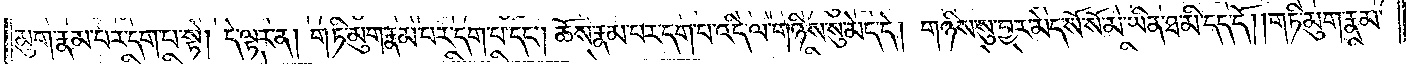མུག་རྣམ་པར་དག་པ་སྟེ། དེ་ལྟར་ན། གཏི་མུག་རྣམ་པར་དག་པ་དང༌། ཆོས་རྣམ་པར་དག་པ་འདི་ལ་གཉིས་སུ་མེད་དེ། གཉིས་སུ་བྱར་མེད་སོ་སོ་མ་ཡིན་ཐ་མི་དད་དོ། །གཏི་མུག་རྣམ་
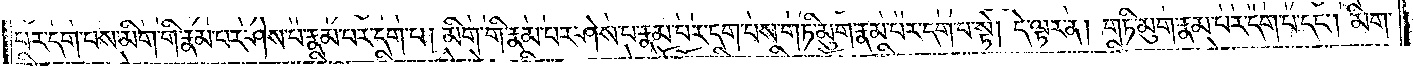པར་དག་པས་མིག་གི་རྣམ་པར་ཤེས་པ་རྣམ་པར་དག་པ། མིག་གི་རྣམ་པར་ཤེས་པ་རྣམ་པར་དག་པས་གཏི་མུག་རྣམ་པར་དག་པ་སྟེ། དེ་ལྟར་ན། གཏི་མུག་རྣམ་པར་དག་པ་དང༌། མིག་
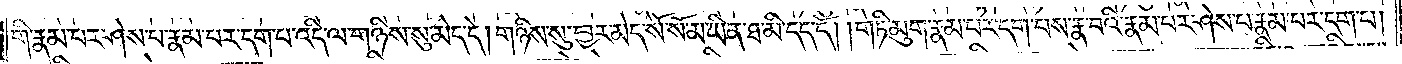གི་རྣམ་པར་ཤེས་པ་རྣམ་པར་དག་པ་འདི་ལ་གཉིས་སུ་མེད་དེ། གཉིས་སུ་བྱར་མེད་སོ་སོ་མ་ཡིན་ཐ་མི་དད་དོ། །གཏི་མུག་རྣམ་པར་དག་པས་རྣ་བའི་ཤེས་པ་རྣམ་པར་དག་པ།
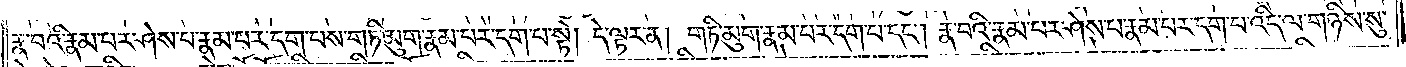རྣ་བའི་རྣམ་པར་ཤེས་པ་རྣམ་པར་དག་པས་གཏི་མུག་རྣམ་པར་དག་པ་སྟེ། དེ་ལྟར་ན། གཏི་མུག་རྣམ་པར་དག་པ་དང༌། རྣ་བའི་རྣམ་པར་ཤེས་པ་རྣམ་པར་དག་པ་འདི་ལ་གཉིས་སུ་
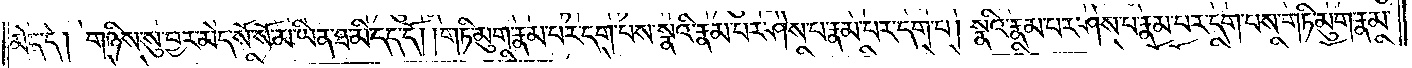མེད་དེ། གཉིས་སུ་བྱར་མེད་སོ་སོ་མ་ཡིན་ཐ་མི་དད་དོ། །གཏི་མུག་རྣམ་པར་དག་པས་སྣའི་རྣམ་པར་ཤེས་པ་རྣམ་པར་དག་པ། སྣའི་རྣམ་པར་ཤེས་པ་རྣམ་པར་དག་པས་གཏི་མུག་རྣམ་
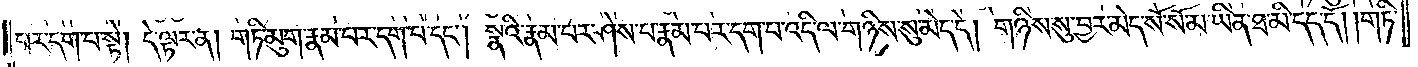པར་དག་པ་སྟེ། དེ་ལྟར་ན། གཏི་མུག་རྣམ་པར་དག་པ་དང༌། སྣའི་རྣམ་པར་ཤེས་པ་རྣམ་པར་དག་པ་འདི་ལ་གཉིས་སུ་མེད་དེ། གཉིས་སུ་བྱར་མེད་སོ་སོ་མ་ཡིན་ཐ་མི་དད་དོ། །གཏི་
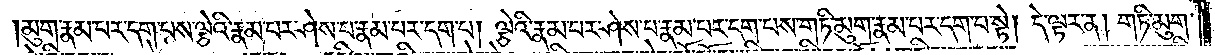མུག་རྣམ་པར་དག་པས་ལྕེའི་རྣམ་པར་ཤེས་པ་རྣམ་པར་དག་པ། ལྕེའི་རྣམ་པར་ཤེས་པ་རྣམ་པར་དག་པས་གཏི་མུག་རྣམ་པར་དག་པ་སྟེ། དེ་ལྟར་ན། གཏི་མུག་
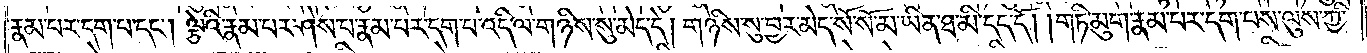རྣམ་པར་དག་པ་དང༌། ལྕེའི་རྣམ་པར་ཤེས་པ་རྣམ་པར་དག་པ་འདི་ལ་གཉིས་སུ་མེད་དེ། གཉིས་སུ་བྱར་མེད་སོ་སོ་མ་ཡིན་ཐ་མི་དད་དོ། །གཏི་མུག་རྣམ་པར་དག་པས་ལུས་ཀྱི་
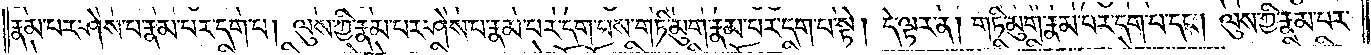རྣམ་པར་ཤེས་པ་རྣམ་པར་དག་པ། ལུས་ཀྱི་རྣམ་པར་ཤེས་པ་རྣམ་པར་དག་པས་གཏི་མུག་རྣམ་པར་དག་པ་སྟེ། དེ་ལྟར་ན། གཏི་མུག་རྣམ་པར་དག་པ་དང༌། ལུས་ཀྱི་རྣམ་པར་
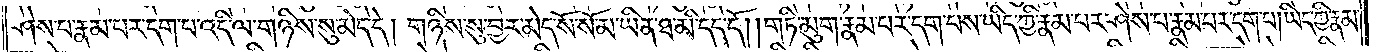ཤེས་པ་རྣམ་པར་དག་པ་འདི་ལ་གཉིས་སུ་མེད་དེ། གཉིས་སུ་བྱར་མེད་སོ་སོ་མ་ཡིན་ཐ་མི་དད་དོ། །གཏི་མུག་རྣམ་པར་དག་པས་ཡིད་ཀྱི་རྣམ་པར་ཤེས་པ་རྣམ་པར་དག་པ། ཡིད་ཀྱི་རྣམ་
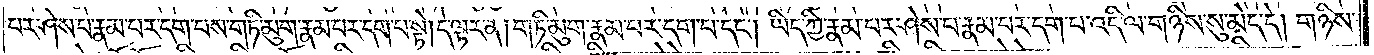པར་ཤེས་པ་རྣམ་པར་དག་པས་གཏི་མུག་རྣམ་པར་དག་པ་སྟེ། དེ་ལྟར་ན། གཏི་མུག་རྣམ་པར་དག་པ་དང༌། ཡིད་ཀྱི་རྣམ་པར་ཤེས་པ་རྣམ་པར་དག་པ་འདི་ལ་གཉིས་སུ་མེད་དེ། གཉིས་
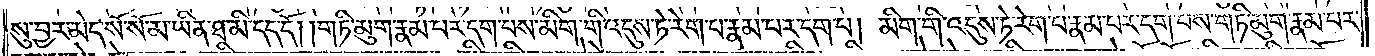སུ་བྱར་མེད་སོ་སོ་མ་ཡིན་ཐ་མི་དད་དོ། །གཏི་མུག་རྣམ་པར་དག་པས་མིག་གི་འདུས་ཏེ་རེག་པ་རྣམ་པར་དག་པ། མིག་གི་འདུས་ཏེ་རེག་པ་རྣམ་པར་དག་པས་གཏི་མུག་རྣམ་པར་
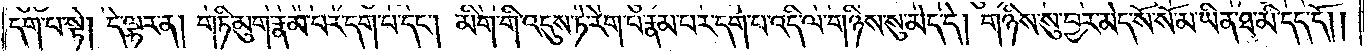དག་པ་སྟེ། དེ་ལྟར་ན། གཏི་མུག་རྣམ་པར་དག་པ་དང༌། མིག་གི་འདུས་ཏེ་རེག་པ་རྣམ་པར་དག་པ་འདི་ལ་གཉིས་སུ་མེད་དེ། གཉིས་སུ་བྱར་མེད་སོ་སོ་མ་ཡིན་ཐ་མི་དད་དོ། །
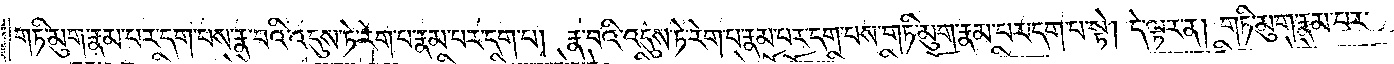གཏི་མུག་རྣམ་པར་དག་པས་རྣ་བའི་འདུས་ཏེ་རེག་པ་རྣམ་པར་དག་པ། རྣ་བའི་འདུས་ཏེ་རེག་པ་རྣམ་པར་དག་པས་གཏི་མུག་རྣམ་པར་དག་པ་སྟེ། དེ་ལྟར་ན། གཏི་མུག་རྣམ་པར་
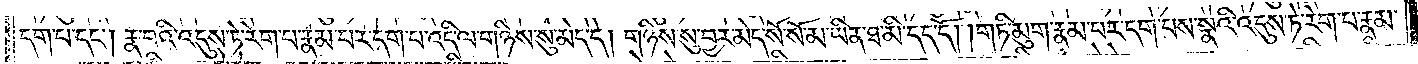དག་པ་དང༌། རྣ་བའི་འདུས་ཏེ་རེག་བ་རྣམ་པར་དག་པ་འདི་ལ་གཉིས་སུ་མེད་དེ། གཉིས་སུ་བྱར་མེད་སོ་སོ་མ་ཡིན་ཐ་མི་དད་དོ། །གཏི་མུག་རྣམ་པར་དག་པས་སྣའི་འདུས་ཏེ་རེག་པ་རྣམ་
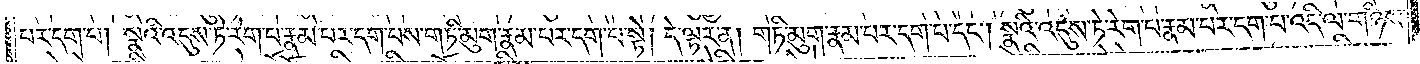པར་དག་པ། སྣའི་འདུས་ཏེ་རེག་པ་རྣམ་པར་དག་པས་གཏི་མུག་རྣམ་པར་དག་པ་སྟེ། དེ་ལྟར་ན། གཏི་མུག་རྣམ་པར་དག་པ་དང༌། སྣའི་འདུས་ཏེ་རེག་པ་རྣམ་པར་དག་པ་འདི་ལ་གཉིས་
